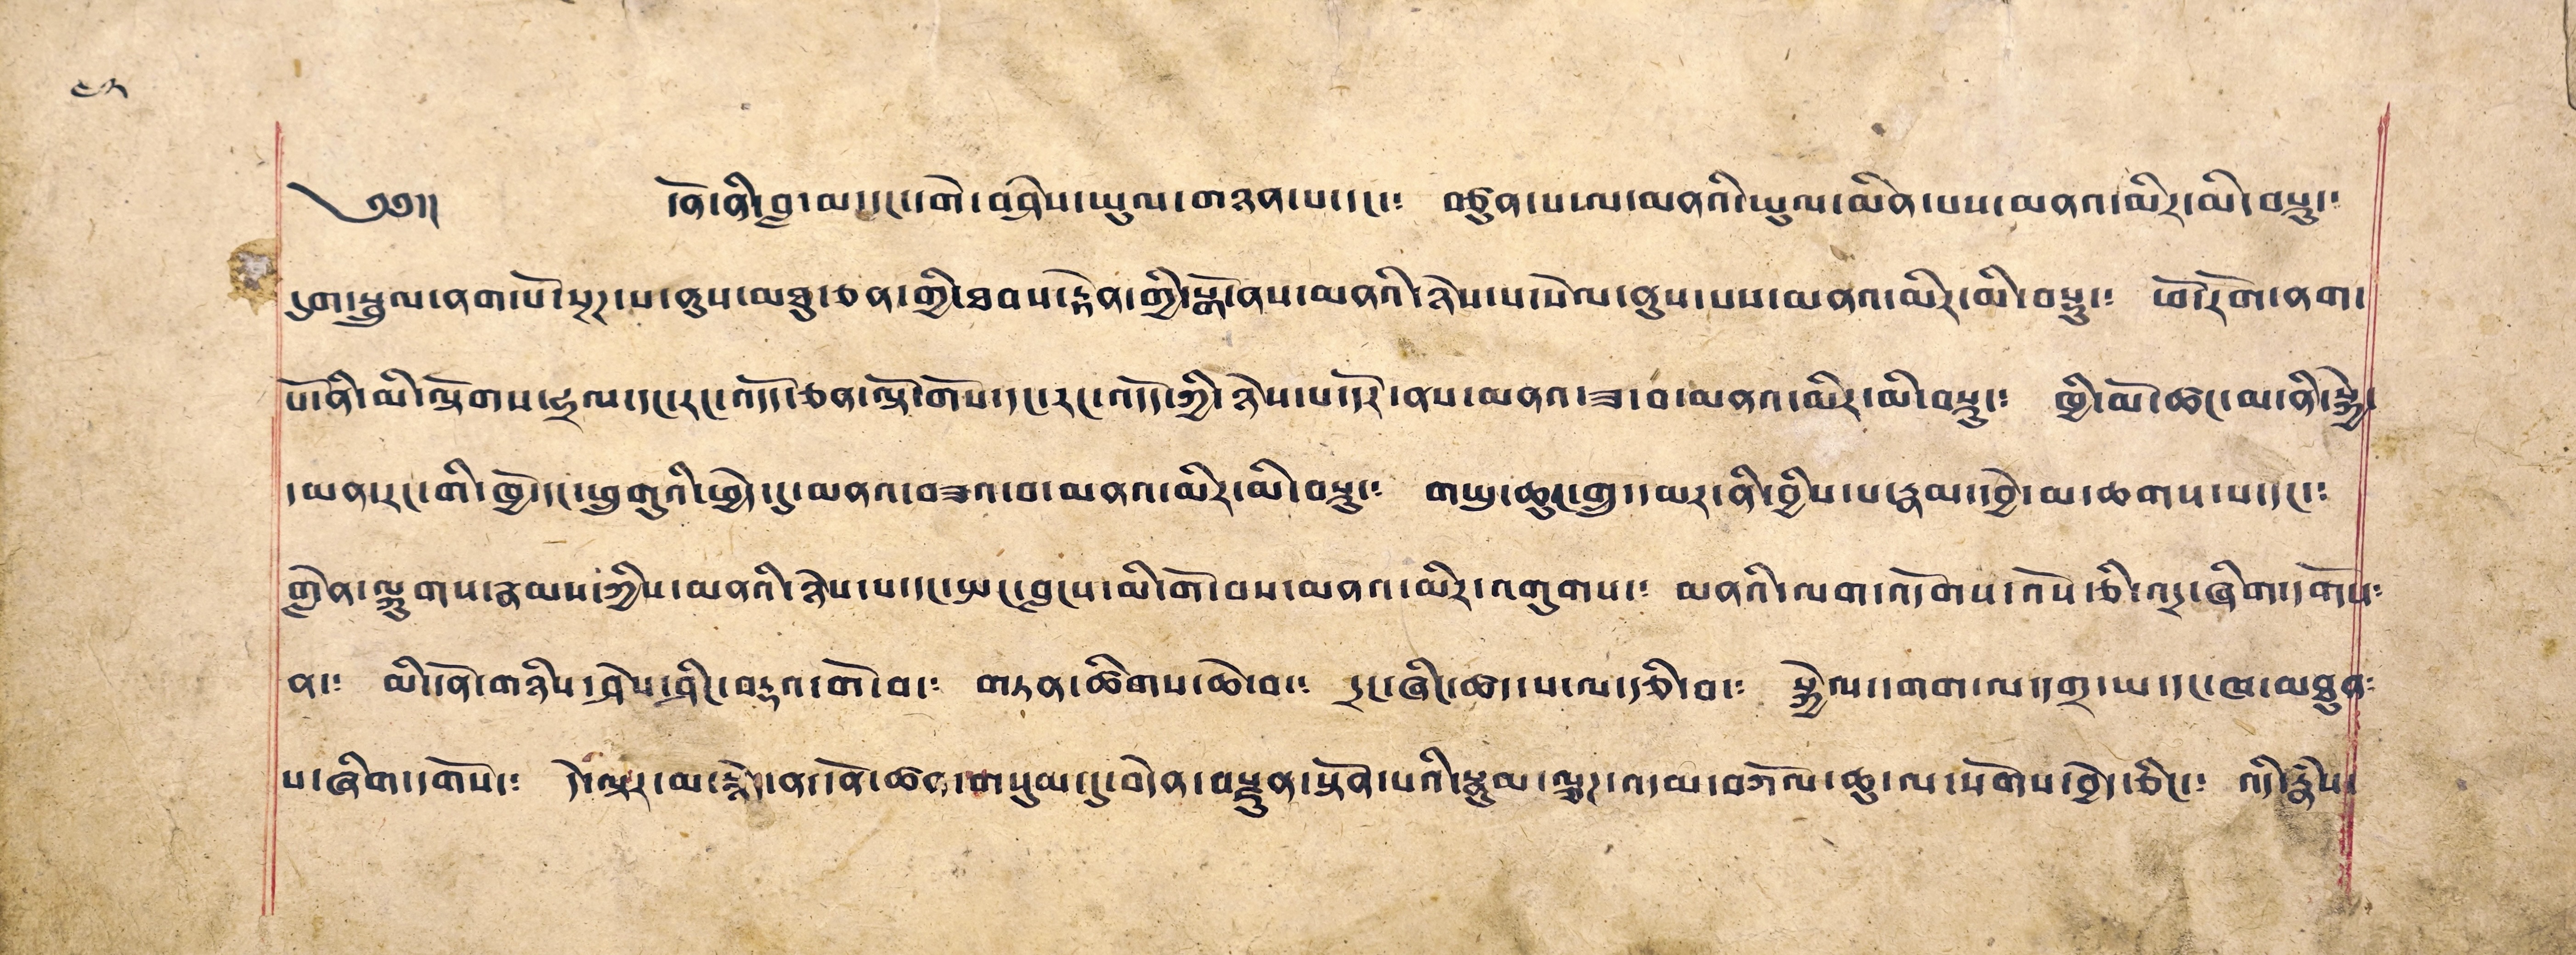༄༅།། དོན་ནི་བླ་མ་དང་དགེ་བཤེས་ཡུལ་གཉན་པ་དང་༴ བཙུན་པ་ལ་མནའི་ཡུལ་མིན་པས་མནའ་མིར་མི་བསྡུ་༴
དུག་སྦྲུལ་ནག་པོ་སྔཊ་པ་ནུས་མཐུ་ཅན་གྱི་ཐབས་རྟེན་གྱི་སྒོ་ནས་མནའི་ཉེས་པ་སེལ་ནུས་པས་མནའ་མིར་མི་བསྡུ་༴ ཕོ་རོག་ནག་
པོ་ནི་མི་ལྟོགས་ཧྲལ་དང་རང་འདོད་ཅན་ལྟོ་གོས་དང་རང་འདོད་ཀྱི་ཉེས་པ་དོར་ནས་མནའ་ཟ་བ་མནའ་མིར་མི་བསྡུ་༴ ཁྱི་མོ་ཚང་མ་ནི་སྐྱེ་
དམན་རང་གི་ཁྱོ་དང་ཕྲུ་གུའི་ཕྱེད་དུ་མནའ་བཟའ་བ་མནའ་མིར་མི་བསྡུ་༴ གཡུ་ཆུང་གྲུ་དམར་ནི་བྱིས་པ་རྣམ་དབྱེ་མ་ཆགས་པ་དང་༴
གླེན་ལྐུགས་རྣམས་ཀྱིས་མནའི་ཉེས་པ་དང་སྤང་བླངས་མི་གོ་བས་མནའ་མིར་འགུགས་༴ མནའི་ལག་འདོགས་འོས་ཅི་འདྲ་ཞིག་དགོས༴
ན་། མི་དོན་གཉིས་ཤེས་ཤིང་བརྡའ་གོ་བ་༴ གཏན་ཚིགས་ཆེ་བ་། དྲང་ཞིང་ཚད་པ་ལ་རྩི་བ་༴ སྐྱེལ་དགག་ལ་དགྲ་ཡ་དང་ཁ་མཐུན༴
པ་ཞིག་དགོས་༴ དེ་ལྟར་མ་སྙེད་ན་དོན་ཚན་གསུམ་དུ་བདེན་བརྫུན་སྟོན་པའི་སྣུམ་ལྕཊ་འདམ་བཀོལ་ཆུ་ལ་སོགས་བྱེད་ཅིང་༴ འདི་རྣཾས་
